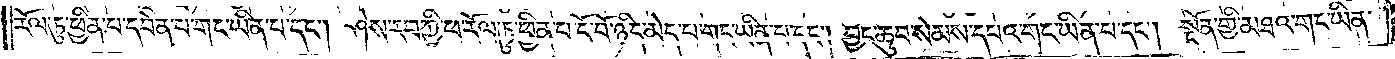རོལ་ཏུ་ཕྱིན་པ་དབེན་པ་གང་ཡིན་པ་དང༌། ཤེས་རབ་ཀྱི་ཕ་རོལ་ཏུ་ཕྱིན་པ་ངོ་བོ་ཉིད་མེད་པ་གང་ཡིན་པ་དང༌། བྱང་ཆུབ་སེམས་དཔའ་གང་ཡིན་པ་དང༌། སྔོན་གྱི་མཐའ་གང་ཡིན་
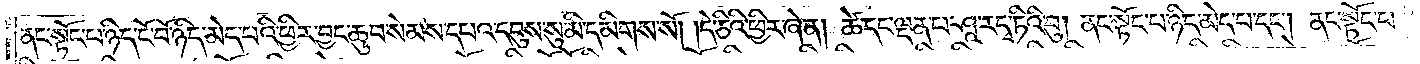ནང་སྟོང་པ་ཉིད་ངོ་བོ་ཉིད་མེད་པའི་ཕྱིར་བྱང་ཆུབ་སེམས་དཔའ་དབུས་སུ་མི་དམིགས་སོ། །དེ་ཅིའི་ཕྱིར་ཞེ་ན། ཚེ་དང་ལྡན་པ་ཤཱ་ར་དྭ་ཏིའི་བུ། །ནང་སྟོང་པ་ཉིད་མེད་པ་དང༌། ནང་སྟོང་པ་
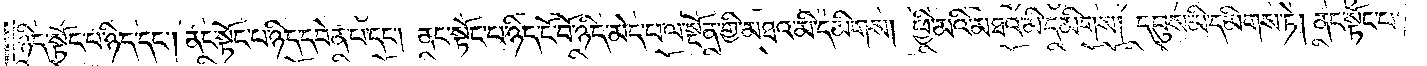ཉིད་སྟོང་པ་ཉིད་དང༌། ནང་སྟོང་པ་ཉིད་དབེན་པ་དང༌། ནང་སྟོང་པ་ཉིད་ངོ་བོ་ཉིད་མེད་པ་ལ་སྔོན་གྱི་མཐའ་མི་དམིགས། ཕྱི་མའི་མཐའ་མི་དམིགས། དབུས་མི་དམིགས་ཏེ། ནང་སྟོང་པ་
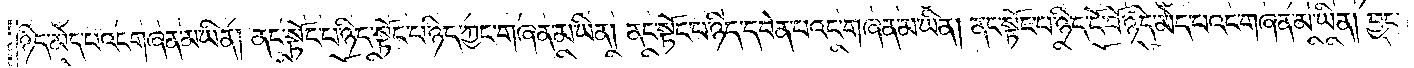ཉིད་མེད་པའང་གཞན་མ་ཡིན། ནང་སྟོང་པ་ཉིད་སྟོང་པ་ཉིད་ཀྱང་གཞན་མ་ཡིན། ནང་སྟོང་པ་ཉིད་དབེན་པའང་གཞན་མ་ཡིན། ནང་སྟོང་པ་ཉིད་ངོ་བོ་ཉིད་མེད་པའང་གཞན་མ་ཡིན། བྱང་
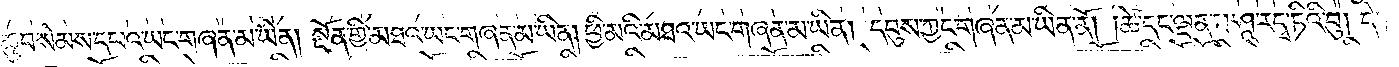ཆུབ་སེམས་དཔའ་ཡང་གཞན་མ་ཡིན། སྔོན་གྱི་མཐའ་ཡང་གཞན་མ་ཡིན། ཕྱི་མའི་མཐའ་ཡང་གཞན་མ་ཡིན། དབུས་ཀྱང་གཞན་མ་ཡིན་ནོ། །ཚེ་དང་ལྡན་པ་ཤཱ་ར་དྭ་ཏིའི་བུ། དེ་
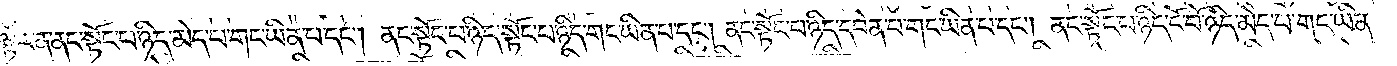ལྟར་ན་ནང་སྟོང་པ་ཉིད་མེད་པ་གང་ཡིན་པ་དང༌། ནང་སྟོང་པ་ཉིད་སྟོང་པ་ཉིད་གང་ཡིན་པ་དང༌། ནང་སྟོང་པ་ཉིད་དབེན་པ་གང་ཡིན་པ་དང༌། ནང་སྟོང་པ་ཉིད་ངོ་བོ་ཉིད་མེད་པ་གང་ཡིན་
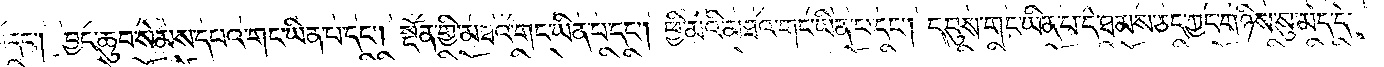པ་དང༌། བྱང་ཆུབ་སེམས་དཔའ་གང་ཡིན་པ་དང༌། སྔོན་གྱི་མཐའ་གང་ཡིན་པ་དང༌། ཕྱི་མའི་མཐའ་གང་ཡིན་པ་དང༌། དབུས་གང་ཡིན་པ་དེ་ཐམས་ཅད་ཀྱང་གཉིས་སུ་མེད་དེ་
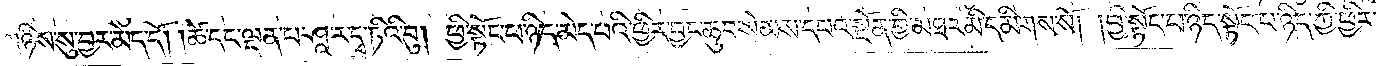གཉིས་སུ་བྱར་མེད་དོ། །ཚེ་དང་ལྡན་པ་ཤཱ་ར་དྭ་ཏིའི་བུ། ཕྱི་སྟོང་པ་ཉིད་མེད་པའི་ཕྱིར་བྱང་ཆུབ་སེམས་དཔའ་སྔོན་གྱི་མཐར་མི་དམིགས་སོ། །ཕྱི་སྟོང་པ་ཉིད་སྟོང་པ་ཉིད་ཀྱི་ཕྱིར་
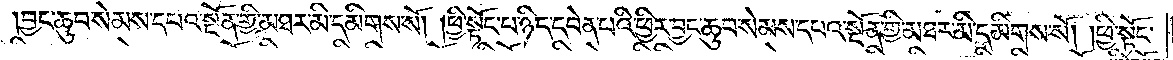བྱང་ཆུབ་སེམས་དཔའ་སྔོན་གྱི་མཐར་མི་དམིགས་སོ། །ཕྱི་སྟོང་པ་ཉིད་དབེན་པའི་ཕྱིར་བྱང་ཆུབ་སེམས་དཔའ་སྔོན་གྱི་མཐར་མི་དམིགས་སོ། །ཕྱི་སྟོང་
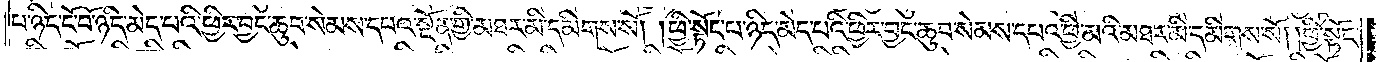པ་ཉིད་ངོ་བོ་ཉིད་མེད་པའི་ཕྱིར་བྱང་ཆུབ་སེམས་དཔའ་སྔོན་གྱི་མཐར་མི་དམིགས་སོ། །ཕྱི་སྟོང་པ་ཉིད་མེད་པའི་ཕྱིར་བྱང་ཆུབ་སེམས་དཔའ་ཕྱི་མའི་མཐར་མི་དམིགས་སོ། །ཕྱི་སྟོང་
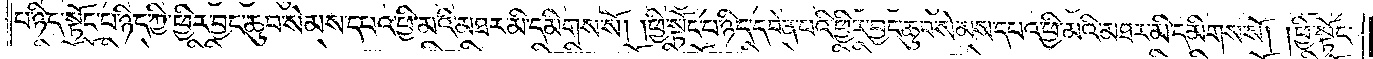པ་ཉིད་སྟོང་པ་ཉིད་ཀྱི་ཕྱིར་བྱང་ཆུབ་སེམས་དཔའ་ཕྱི་མའི་མཐར་མི་དམིགས་སོ། །ཕྱི་སྟོང་པ་ཉིད་དབེན་པའི་ཕྱིར་བྱང་ཆུབ་སེམས་དཔའ་ཕྱི་མའི་མཐར་མི་དམིགས་སོ། །ཕྱི་སྟོང་
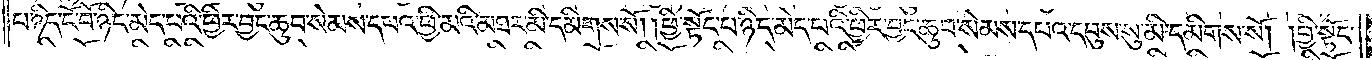པ་ཉིད་ངོ་བོ་ཉིད་མེད་པའི་ཕྱིར་བྱང་ཆུབ་སེམས་དཔའ་ཕྱི་མའི་མཐར་མི་དམིགས་སོ། །ཕྱི་སྟོང་པ་ཉིད་མེད་པའི་ཕྱིར་བྱང་ཆུབ་སེམས་དཔའ་དབུས་སུ་མི་དམིགས་སོ། །ཕྱི་སྟོང་
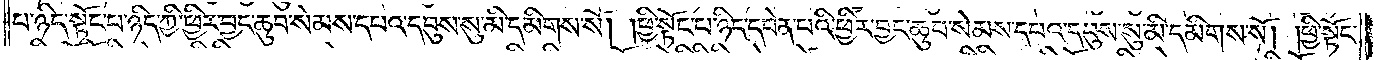པ་ཉིད་སྟོང་པ་ཉིད་ཀྱི་ཕྱིར་བྱང་ཆུབ་སེམས་དཔའ་དབུས་སུ་མི་དམིགས་སོ། །ཕྱི་སྟོང་པ་ཉིད་དབེན་པའི་ཕྱིར་བྱང་ཆུབ་སེམས་དཔའ་དབུས་སུ་མི་དམིགས་སོ། །ཕྱི་སྟོང་
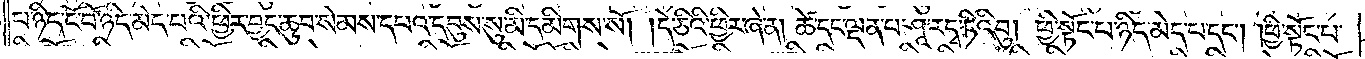པ་ཉིད་ངོ་བོ་ཉིད་མེད་པའི་ཕྱིར་བྱང་ཆུབ་སེམས་དཔའ་དབུས་སུ་མི་དམིགས་སོ། །དེ་ཅིའི་ཕྱིར་ཞེ་ན། ཚེ་དང་ལྡན་པ་ཤཱ་རདྭ་ཏིའི་བུ། ཕྱི་སྟོང་པ་ཉིད་མེད་པ་དང༌། ཕྱི་སྟོང་པ་
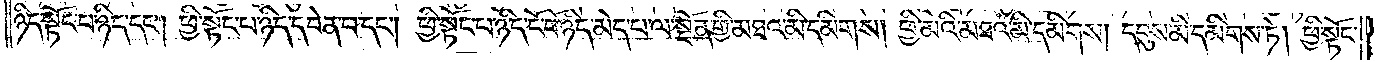ཉིད་སྟོང་པ་ཉིད་དང༌། ཕྱི་སྟོང་པ་ཉིད་དབེན་པ་དང༌། ཕྱི་སྟོང་པ་ཉིད་ངོ་བོ་ཉིད་མེད་པ་ལ་སྔོན་གྱི་མཐའ་མི་དམིགས། ཕྱི་མའི་མཐའ་མི་དམིགས། དབུས་མི་དམིགས་ཏེ། ཕྱི་སྟོང་
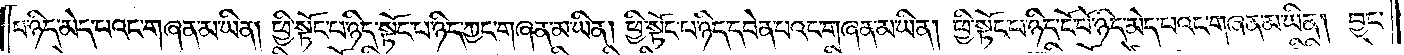པ་ཉིད་མེད་པའང་གཞན་མ་ཡིན། ཕྱི་སྟོང་པ་ཉིད་སྟོང་པ་ཉིད་ཀྱང་གཞན་མ་ཡིན། ཕྱི་སྟོང་པ་ཉིད་དབེན་པའང་གཞན་མ་ཡིན། ཕྱི་སྟོང་པ་ཉིད་ངོ་བོ་ཉིད་མེད་པའང་གཞན་མ་ཡིན། བྱང་
